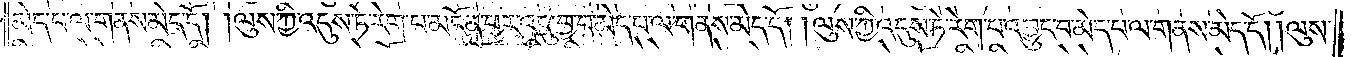མེད་པ་ལ་གནས་མེད་དོ། །ལུས་ཀྱི་འདུས་ཏེ་རེག་པ་མངོན་པར་འདུ་བྱ་བ་མེད་པ་ལ་གནས་མེད་དོ། །ལུས་ཀྱི་འདུས་ཏེ་རེག་པ་འབྱུང་བ་མེད་པ་ལ་གནས་མེད་དོ། །ལུས་
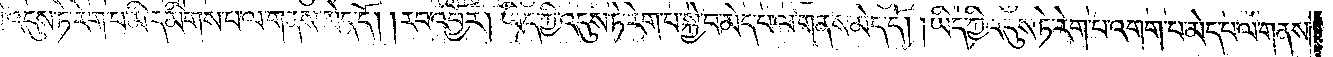ཀྱི་འདུས་ཏེ་རེག་པ་མི་དམིགས་པ་ལ་གནས་མེད་དོ། །རབ་འབྱོར། ཡིད་ཀྱི་འདུས་ཏེ་རེག་པ་སྐྱེ་བ་མེད་པ་ལ་གནས་མེད་དོ། །ཡིད་ཀྱི་འདུས་ཏེ་རེག་པ་འགག་པ་མེད་པ་ལ་གནས་
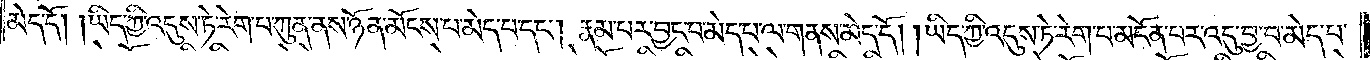མེད་དོ། །ཡིད་ཀྱི་འདུས་ཏེ་རེག་པ་ཀུན་ནས་ཉོན་མོངས་པ་མེད་པ་དང༌། རྣམ་པར་བྱང་པ་མེད་པ་ལ་གནས་མེད་དོ། །ཡིད་ཀྱི་འདུས་ཏེ་རེག་པ་མངོན་པར་འདུ་བྱ་བ་མེད་པ་
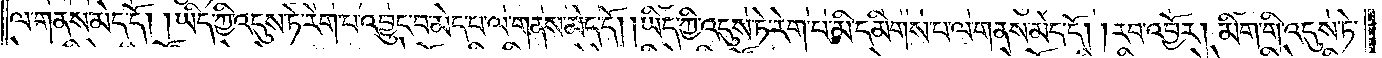ལ་གནས་མེད་དོ། །ཡིད་ཀྱི་འདུས་ཏེ་རེག་པ་འབྱུང་བ་མེད་པ་ལ་གནས་མེད་དོ། །ཡིད་ཀྱི་འདུས་ཏེ་རེག་པ་མི་དམིགས་པ་ལ་གནས་མེད་དོ། །རབ་འབྱོར། མིག་གི་འདུས་ཏེ་
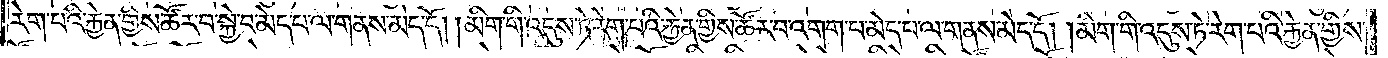རེག་པའི་རྐྱེན་གྱིས་ཚོར་བ་སྐྱེ་བ་མེད་པ་ལ་གནས་མེད་དོ། །མིག་གི་འདུས་ཏེ་རེག་པའི་རྐྱེན་གྱིས་ཚོར་བ་འགག་པ་མེད་པ་ལ་གནས་མེད་དོ། །མིག་གི་འདུས་ཏེ་རེག་པའི་རྐྱེན་གྱིས་
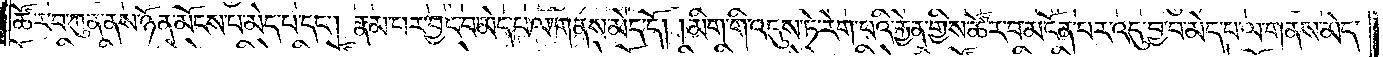ཚོར་བ་ཀུན་ནས་ཉོན་མོངས་པ་མེད་པ་དང༌། རྣམ་པར་བྱང་བ་མེད་པ་ལ་གནས་མེད་དོ། །མིག་གི་འདུས་ཏེ་རེག་པའི་རྐྱེན་གྱིས་ཚོར་བ་མངོན་པར་འདུ་བྱ་བ་མེད་པ་ལ་གནས་མེད་
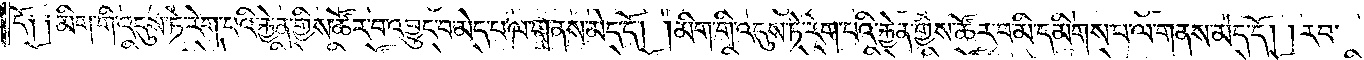དོ༑ ༑མིག་གི་འདུས་ཏེ་རེག་པའི་རྐྱེན་གྱིས་ཚོར་བ་འབྱུང་བ་མེད་པ་ལ་གནས་མེད་དོ། །མིག་གི་འདུས་ཏེ་རེག་པའི་རྐྱེན་གྱིས་ཚོར་བ་མི་དམིགས་པ་ལ་གནས་མེད་དོ། །རབ་
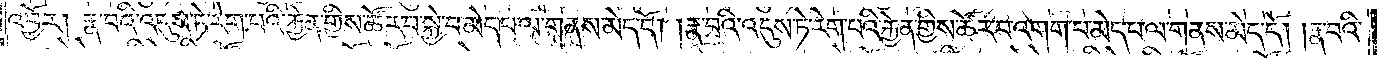འབྱོར། རྣ་བའི་འདུས་ཏེ་རེག་པའི་རྐྱེན་གྱིས་ཚོར་བ་སྐྱེ་བ་མེད་པ་ལ་གནས་མེད་དོ། །རྣ་བའི་འདུས་ཏེ་རེག་པའི་རྐྱེན་གྱིས་ཚོར་བ་འགག་པ་མེད་པ་ལ་གནས་མེད་དོ། །རྣ་བའི་
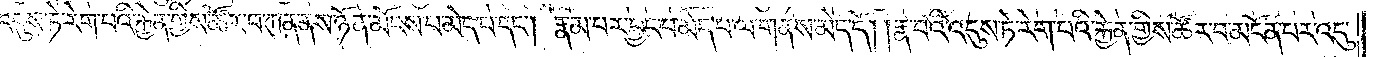འདུས་ཏེ་རེག་པའི་རྐྱེན་གྱིས་ཚོར་བ་ཀུན་ནས་ཉོན་མོངས་པ་མེད་པ་དང༌། རྣམ་པར་བྱང་བ་མེད་པ་ལ་གནས་མེད་དོ། །རྣ་བའི་འདུས་ཏེ་རེག་པའི་རྐྱེན་གྱིས་ཚོར་བ་མངོན་པར་འདུ་
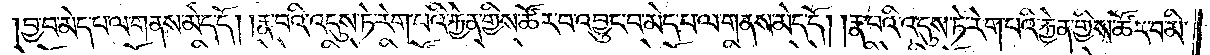བྱ་བ་མེད་པ་ལ་གནས་མེད་དོ། །རྣ་བའི་འདུས་ཏེ་རེག་པའི་རྐྱེན་གྱིས་ཚོར་བ་འབྱུང་བ་མེད་པ་ལ་གནས་མེད་དོ། །རྣ་བའི་འདུས་ཏེ་རེག་པའི་རྐྱེན་གྱིས་ཚོར་བ་མི་
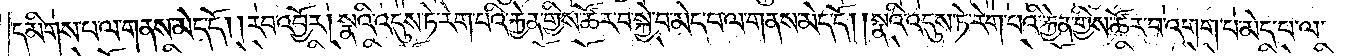དམིགས་པ་ལ་གནས་མེད་དོ། །རབ་འབྱོར། སྣའི་འདུས་ཏེ་རེག་པའི་རྐྱེན་གྱིས་ཚོར་བ་སྐྱེ་བ་མེད་པ་ལ་གནས་མེད་དོ། །སྣའི་འདུས་ཏེ་རེག་པའི་རྐྱེན་གྱིས་ཚོར་བ་འགག་པ་མེད་པ་ལ་
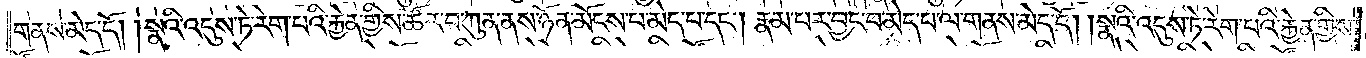གནས་མེད་དོ། །སྣའི་འདུས་ཏེ་རེག་པའི་རྐྱེན་གྱིས་ཚོར་བ་ཀུན་ནས་ཉོན་མོངས་པ་མེད་པ་དང༌། རྣམ་པར་བྱང་བ་མེད་པ་ལ་གནས་མེད་དོ། །སྣའི་འདུས་ཏེ་རེག་པའི་རྐྱེན་གྱིས་
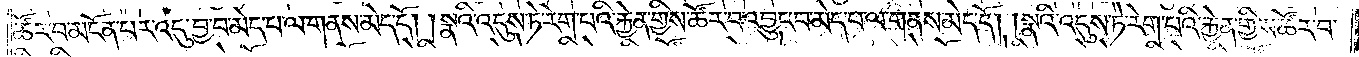ཚོར་བ་མངོན་པར་འདུ་བྱ་བ་མེད་པ་ལ་གནས་མེད་དོ། །སྣའི་འདུས་ཏེ་རེག་པའི་རྐྱེན་གྱིས་ཚོར་བ་འབྱུང་བ་མེད་པ་ལ་གནས་མེད་དོ། །སྣའི་འདུས་ཏེ་རེག་པའི་རྐྱེན་གྱིས་ཚོར་བ་
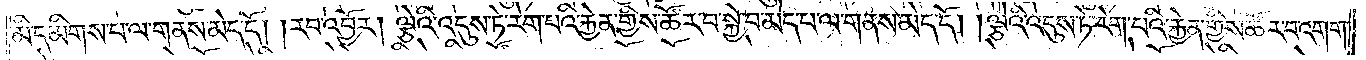མི་དམིགས་པ་ལ་གནས་མེད་དོ། །རབ་འབྱོར། ལྕེའི་འདུས་ཏེ་རེག་པའི་རྐྱེན་གྱིས་ཚོར་བ་སྐྱེ་བ་མེད་པ་ལ་གནས་མེད་དོ། །ལྕེའི་འདུས་ཏེ་རེག་པའི་རྐྱེན་གྱིས་ཚོར་བ་འགག་
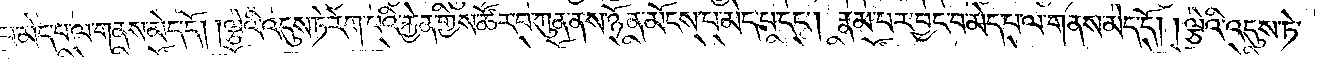པ་མེད་པ་ལ་གནས་མེད་དོ། །ལྕེའི་འདུས་ཏེ་རེག་པའི་རྐྱེན་གྱིས་ཚོར་བ་ཀུན་ནས་ཉོན་མོངས་པ་མེད་པ་དང༌། རྣམ་པར་བྱང་བ་མེད་པ་ལ་གནས་མེད་དོ། །ལྕེའི་འདུས་ཏེ་
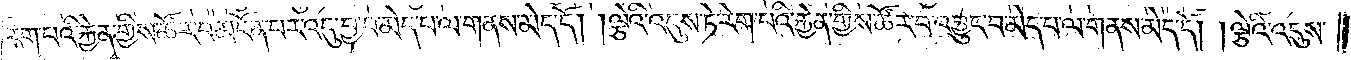རེག་པའི་རྐྱེན་གྱིས་ཚོར་བ་མངོན་པར་འདུ་བྱ་བ་མེད་པ་ལ་གནས་མེད་དོ། །ལྕེའི་འདུས་ཏེ་རེག་པའི་རྐྱེན་གྱིས་ཚོར་བ་འབྱུང་བ་མེད་པ་ལ་གནས་མེད་དོ། །ལྕེའི་འདུས་
